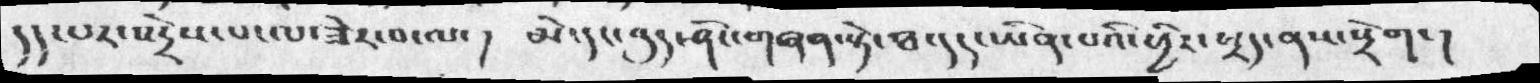དད་པར་འདྲེས་པ་ལ་ཟེར་བ་ལ་།  མེ་དང་བུད་ཤིང་གཞན་སྟེ་ཐ་དད་ཡིན་པའི་ཕྱིར་ཕྲད་ནས་སྲེག་།
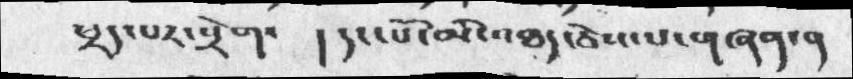ཕྲད་པར་སྲེག་  །དང་པོ་མི་འཐད་ཅེས་པ་གཞན་ན
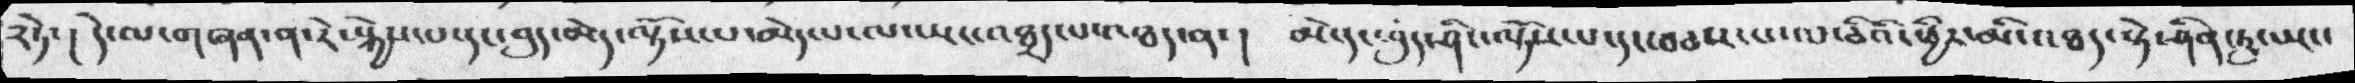༢ཏེ་། དེ་ལ་གཞན་ན་རེ་སྐྱེས་པ་དང་བུད་མེད་ལྟོས་པ་མེད་པ་ལ་ཡང་འཐད་པ་འཐད་ན་།  མེ་དང་བུད་ཤིང་ལྟོས་པ་དང་བཅས་པ་ལ་ཅིའི་ཕྱིར་མི་འཐད་སྟེ་ཤིན་ཏུ་ཡང་
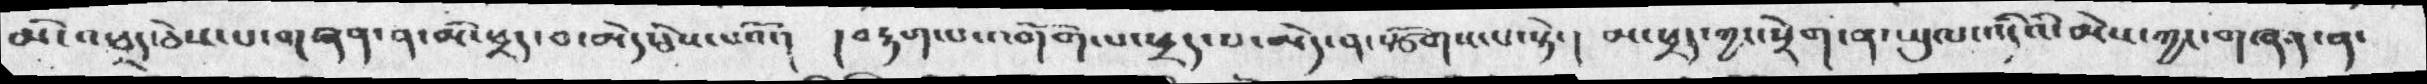མི་འཐད་ཅེས་པ་གཞན་ན་མི་ཕྲད་བ་མེད་ཅེས་པའོ་།  །བརྟག་པ་འགོག་པ་ཕྲད་པ་མེད་ན་སྩོགས་པ་སྟེ་། མ་ཕྲད་ཀྱང་སྲེག་ན་ཡུལ་འདིའི་མེས་ཀྱང་གཞན་ན་
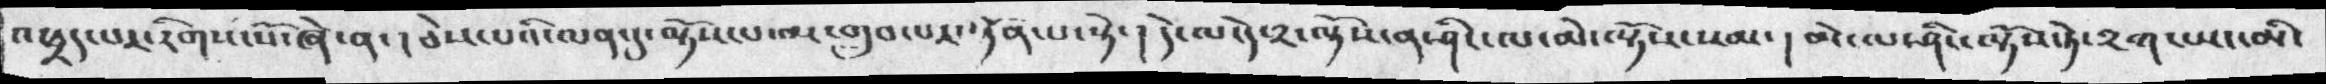འཕྲད་པར་རིགས་སོ་ཞེ་ན་། ཅེས་པའི་ལན་དུ་ལྟོས་པ་མ་གྲུབ་པར་ཏོན་པ་སྟེ་། དེ་ལ་དེ་༢་ལྟོས་ན་ཤིང་ལ་མེ་ལྟོས་སམ་། མེ་ལ་ཤིང་ལྟོས་ཏེ་༢ག་ཡང་མི་
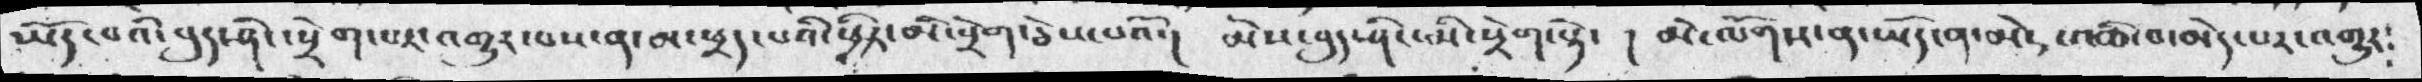ཡོད་བའི་བུད་ཤིང་སྲེག་པར་འགྱུར་བས་ན་མ་ཕྲད་པའི་ཕྱིར་མེ་སྲེག་ཅེས་པའོ་།  མེས་བུད་ཤིང་མི་སྲེག་སྟེ་ ། མེ་ལོགས་ན་ཡོད་ན་མེ་འཆི་བ་མེད་པར་འགྱུར༴
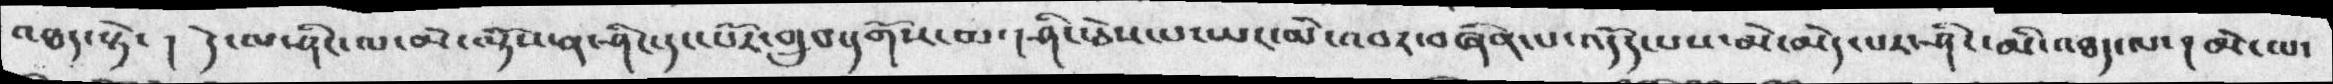འཐད་སྟེ་ ། དེ་ལ་ཤིང་ལ་མེ་ལྟོས་ན་ཤིང་དང་པོར་གྲུབ་དགོས་མ་། ཤིང་ཅེས་པ་ཡང་མེ་འབར་བཞིན་པ་འདོད་པས་མེ་མེད་པར་ཤིང་མི་འཐད་ལ་། མེ་ལ་
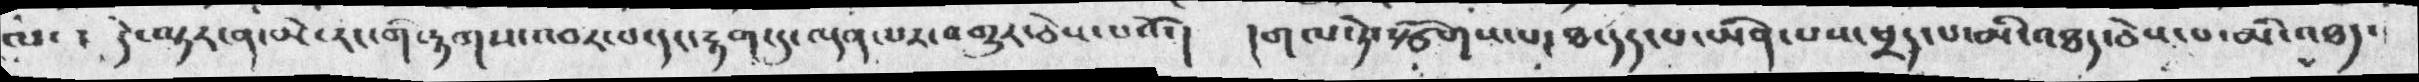ལ་། དེ་ལྟར་ན་མེ་རང་གི་རྟགས་འབར་པ་དང་རྟག་དུ་ལྡན་པར་འགྱུར་ཅེས་པའོ་།  །གལ་ཏེ་སྩོགས་པ་ཐ་དད་པ་ཡིན་པས་ཕྲད་པ་མི་འཐད་ཅེས་པ་མི་འཐད་
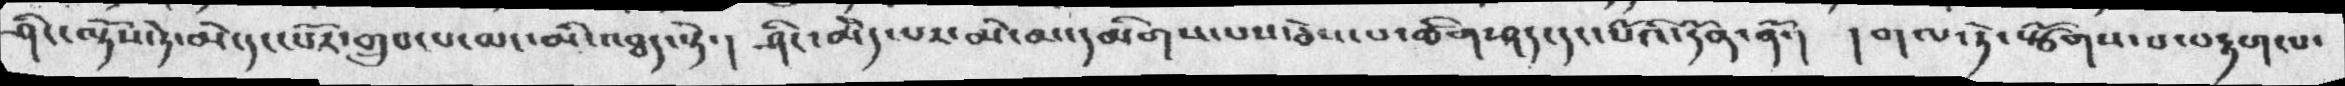ཤིང་ལྟོས་ཏེ་མེ་དང་པོར་གྲུབ་པ་ཡང་མི་འཐད་སྟེ་།  ཤིང་མེད་པར་མེ་མ་དམིགས་པས་ཅེས་པ་ཚིག་ཤད་དང་པོའི་དོན་ནོ་།  །གལ་ཏེ་སྩོགས་པ་བརྟག་པ་
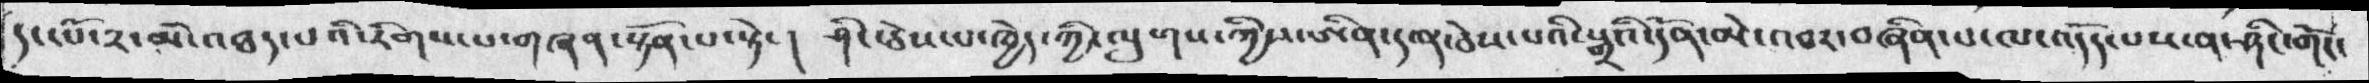དང་པོ་༢་མི་འཐད་པའི་རིགས་པ་གཞན་སྟོན་པ་སྟེ་། ཤིང་ཅེས་པ་ཁྱེད་ཀྱི་ལུགས་ཀྱིས་ཨིན་ད་ན་ཅེས་པའི་སྒྲའི་དོན་མེ་འབར་བཞིན་པ་ལ་འདོད་པས་ན་ཤིང་གོང་
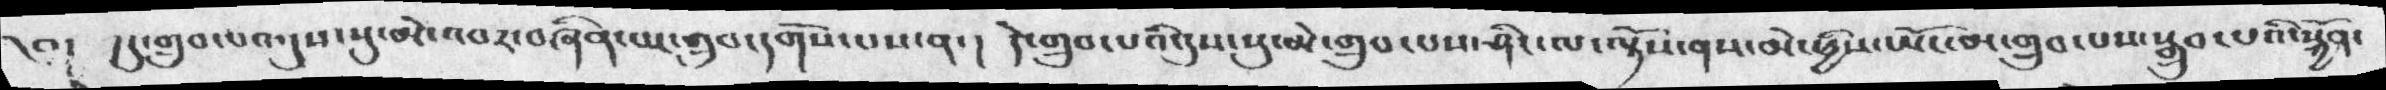༅།  །དུ་གྲུབ་པའ་དུས་སུ་མེ་འབར་བཞིན་མ་གྲུབ་དགོས་པས་ན་།  དེ་གྲུབ་པའི་དུས་སུ་མེ་གྲུབ་པས་ཤིང་ལ་ལྟོས་ནས་མེ་ཕྱིས་ཡོང་མ་གྲུབ་པས་སྒྲུབ་པའི་སྐྱོན་
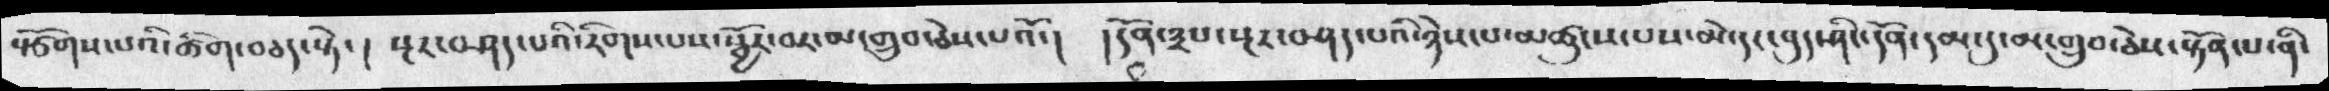སྩོགས་པའི་ཚིག་བཅད་སྟེ་། སྔར་བཤད་པའི་རིགས་པས་སྦྱོར་བར་མ་གྲུབ་ཅེས་པའོ་།  །དོན་༣པ་སྔར་བཤད་པའི་ཉེས་པ་མཚུངས་པས་མེ་དང་བུད་ཤིང་དོན་དམ་དུ་མ་གྲུབ་ཅེས་སྟོན་པ་ནི་
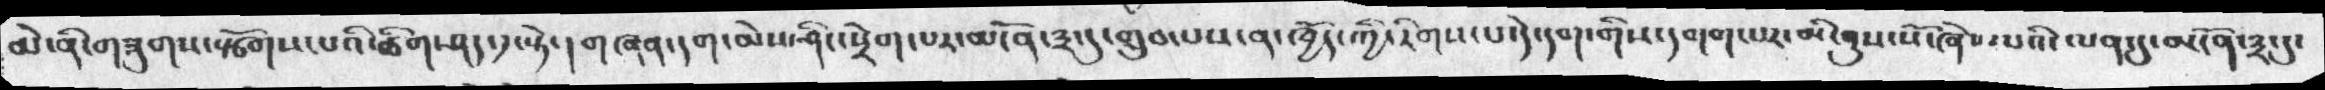མེ་ནི་གཟུགས་སྩོགས་པའི་ཚིག་ཤད་༡་སྟེ་། གཞན་དག་མེས་ཤིང་སྲེག་པར་མངོན་༣་དུ་གྲུབ་པས་ན་ཁྱོད་ཀྱི་རིགས་པ་དེ་དག་གིས་དགག་པར་མི་ནུས་སོ་ཞེས་པའི་ལན་དུ་མངོན་༣་དུ་
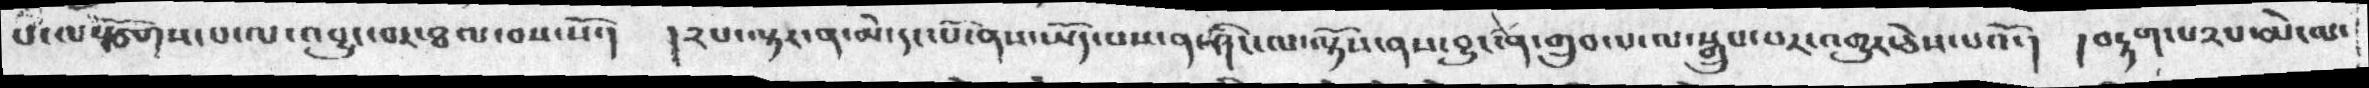པ་ལསྩོགས་པ་ལ་འབྱུང་བར་ཐལ་བས་སོ་།  །༢པ་ལྟར་ན་མེ་དང་པོ་ནས་ཡོད་པས་ན་ཤིང་ལ་ལྟོས་ནས་བྱུང་ན་གྲུབ་པ་ལ་སྒྲུབ་པར་འགྱུར་ཅེས་པའོ་།  །བརྟག་པ༢པ་མེ་ལ་
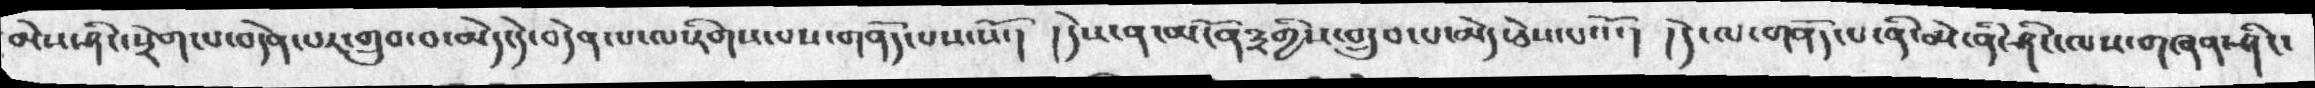མེས་ཤིང་སྲེག་པ་བདེན་པར་གྲུབ་པ་མེད་དེ་བདེན་པ་ལ་རིགས་པས་གནོད་པས་སོ་། །དེས་ན་མངོན༣གྱིས་གྲུབ་པ་མེད་ཅེས་པའོ་།  །དེ་ལ་གནོད་པ་ནི་མེ་ནི་ཤིང་ལས་གཞན་ཤིང་
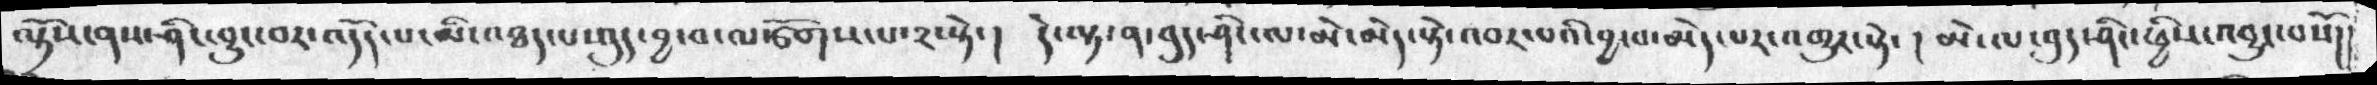ལྟོས་ནས་ཤིང་བྱུང་བར་འདོད་པ་མི་འཐད་པ་ཕུད་བྱ་བ་ལསྩོགས་པ་༢་སྟེ་། དེ་ལྟ་ན་བུད་ཤིང་ལ་མེ་མེད་སྟེ་འབར་བའི་བྱ་བ་མེད་པར་འགྱུར་སྟེ་ ། མེ་ལ་བུད་ཤིང་ཕྱིས་འབྱུང་བསོ།
